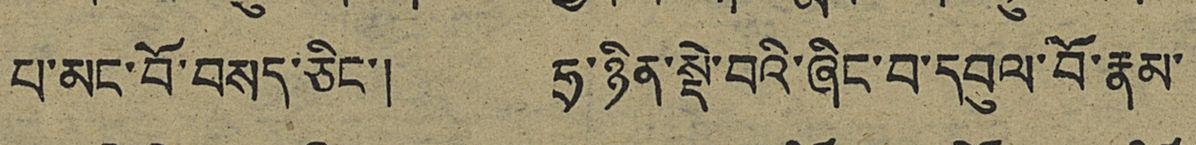པ་མང་བོ་བསད་ཅིང་། ཧྲ་ཉིན་སྡེ་བའི་ཞིང་བ་དབུལ་བོ་རྣམ་
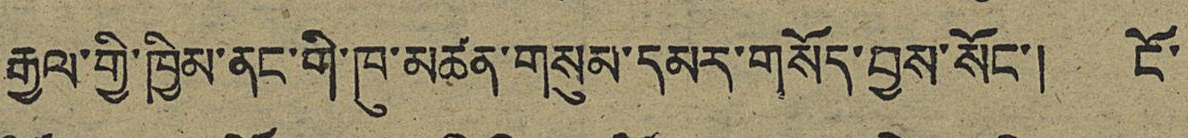རྒྱལ་གྱི་ཁྱིམ་ནང་གི་ཁུ་མཚན་གསུམ་དམར་གསོད་བྱས་སོང་། ངོ་
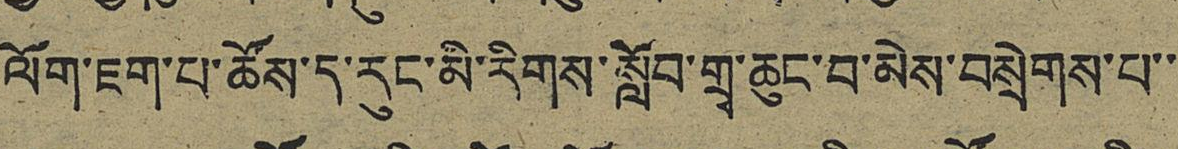ལོག་ཇག་པ་ཚོས་ད་རུང་མི་རིགས་སློབ་གྲྭ་ཆུང་བ་མེས་བསྲེགས་པ་་
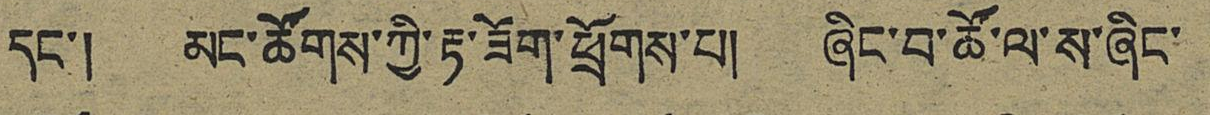དང་། མང་ཚོགས་ཀྱི་རྟ་ཟོག་ཕྲོགས་པ། ཞིང་བ་ཚོ་ལ་ས་ཞིང་
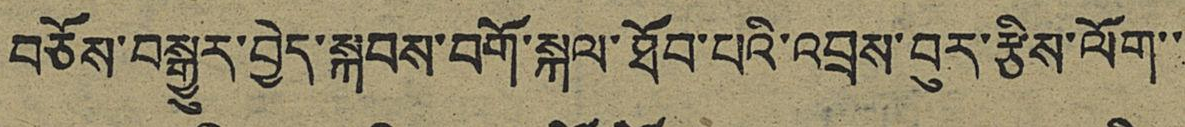བཅོས་བསྒྱུར་བྱེད་སྐབས་བགོ་སྐལ་ཐོབ་པའི་འབྲས་བུར་རྩིས་ལོག་་
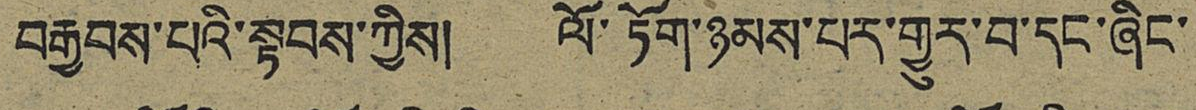བརྒྱབས་པའི་སྟབས་ཀྱིས། ལོ་ཏོག་ཉམས་པར་གྱུར་བ་དང་ཞིང་
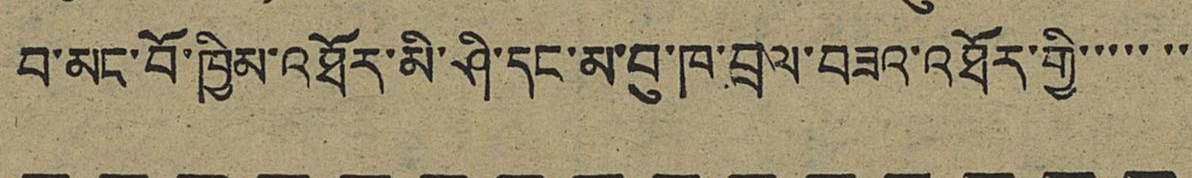བ་མང་བོ་ཁྱིམ་འཐོར་མི་ཤི་དང་མ་བུ་ཁ་བྲལ་བཟའ་འཐོར་གྱི་་་་་་
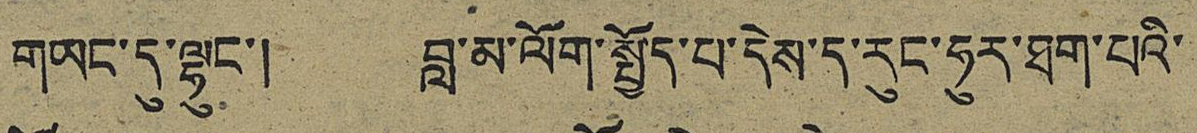གཡང་དུ་ལྷུང་། བླ་མ་ལོག་སྤྱོད་པ་དེས་ད་རུང་ཧུར་ཐག་པའི་
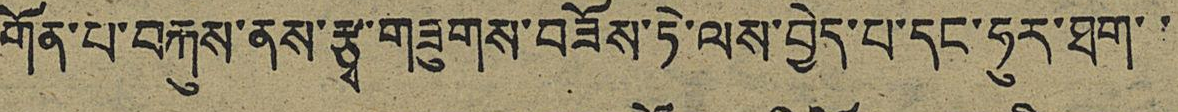གོན་པ་བརྐུས་ནས་རྩྭ་གཟུགས་བཟོས་ཏེ་ལས་བྱེད་པ་དང་ཧུར་ཐག་་
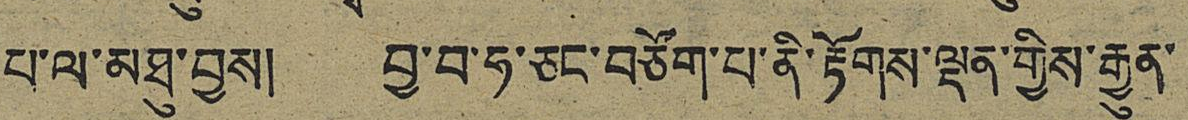པ་ལ་མཐུ་བྱས། བྱ་བ་ཧ་ཅང་བཙོག་པ་ནི་རྟོགས་ལྡན་གྱིས་རྒྱུན་
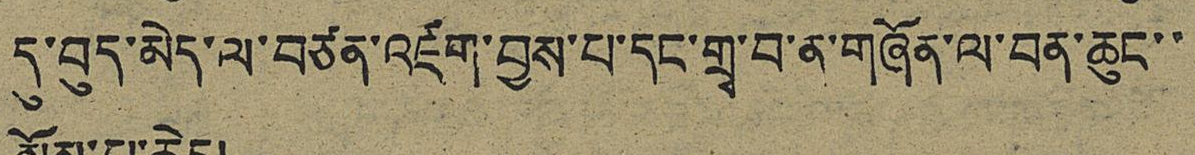དུ་བུད་མེད་ལ་བཙན་འཇག་བྱས་པ་དང་གྲྭ་བ་ན་གཞོན་ལ་བན་ཆུང་་
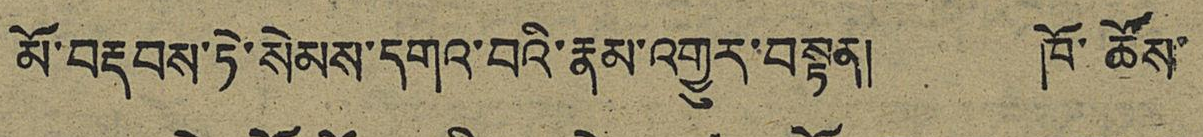མོ་བརྡབས་ཏེ་སེམས་དགའ་བའི་རྣམ་འགྱུར་བསྟན། ཁོ་ཚོས་
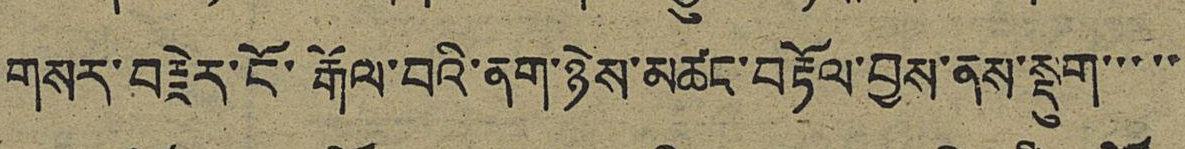གསར་བརྗེར་ངོ་རྒོལ་བའི་ནག་ཉེས་མཚང་བརྟོལ་བྱས་ན་སྡུག་་་་་
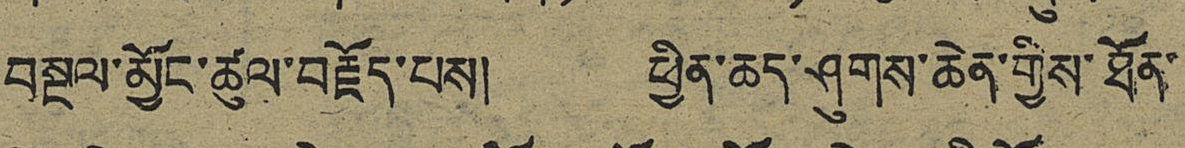བསྔལ་མྱོང་ཚུལ་བརྗོད་པས། ཕྱིན་ཆད་ཤུགས་ཆེན་གྱིས་ཐོན་
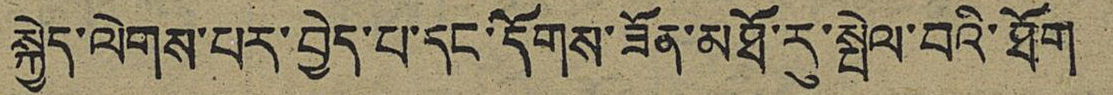སྐྱེད་ལེགས་པར་བྱེད་པ་དང་དོགས་ཟོན་མཐོ་རུ་སྤེལ་བའི་ཐོག
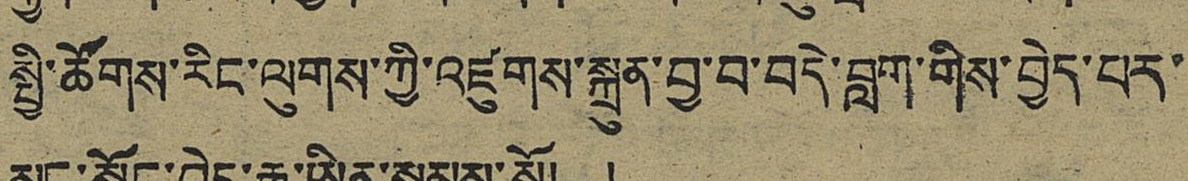སྤྱི་ཚོགས་རིང་ལུགས་ཀྱི་འཛུགས་སྐྲུན་བྱ་བ་བདེ་བླག་གིས་བྱེད་པར་
